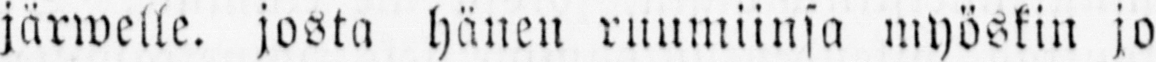järwelle. josta hänen ruumiinsa myöskin jo
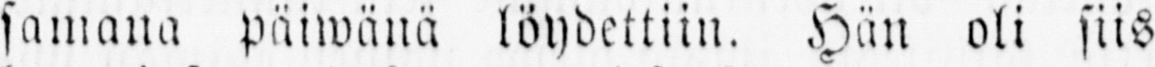samana päiwänä löydettiin. Hän oli siis
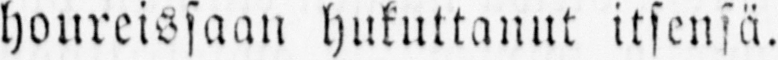houreissaan hukuttanut itsensä.
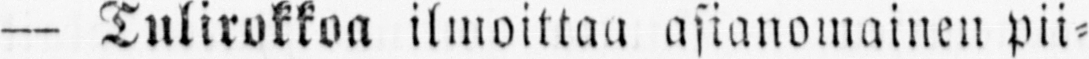— Tulirokkoa ilmoittaa asianomainen pii-
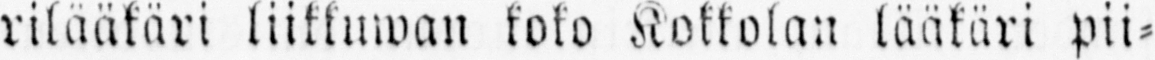rilääkäri liikkuwan koko Kokkolan lääkäri pii-
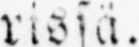rissä.
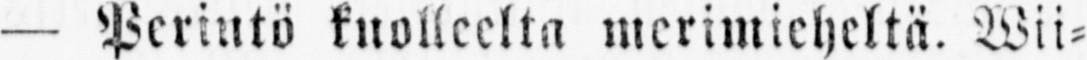— Perintö kuolleelta merimieheltä. Wii-
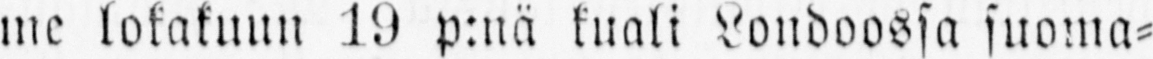me lokakuun 19 p:nä kuali Londoossa suoma-
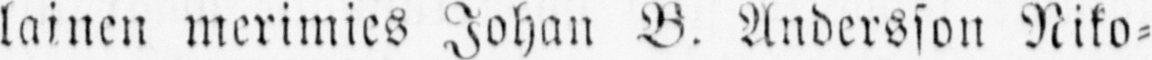lainen merimies Johan B. Andersson Niko-
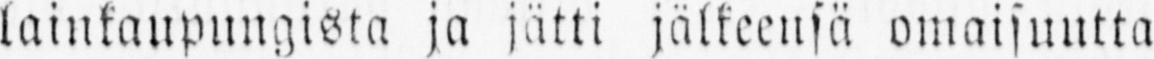lainkaupungista ja jätti jälkeensä omaisuutta
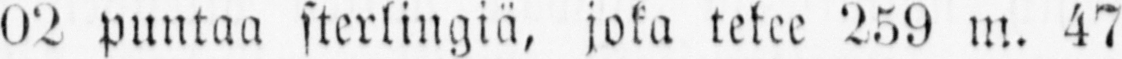102 puntaa sterlingiä, joka tekee 259 m. 47
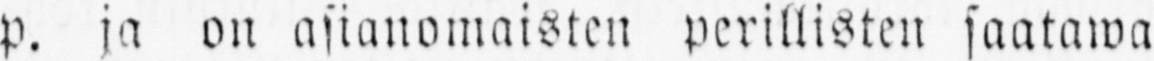p. ja on asianomaisten perillisten saatawa
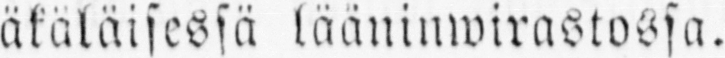täkäläisessä lääninwirastossa.
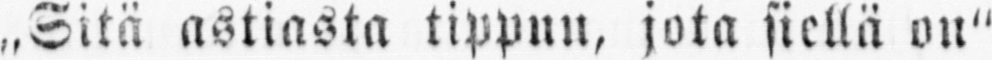— „Sitä astiasta tippuu, jota siellä on"
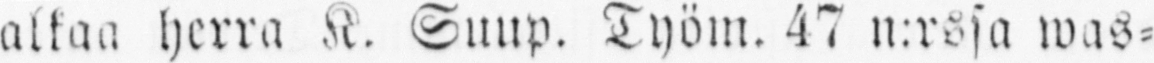alkaa herra K. Suup. Työm. 47 n:rssa was-
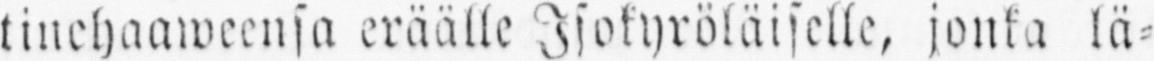tinehaaweensa eräälle Isokyröläiselle, jonka lä-
